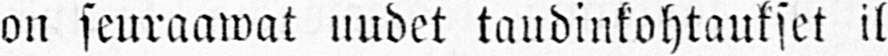on seuraawat uudet taudinkohtaukset il-
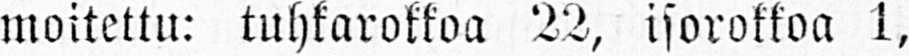moitettu: tuhkarokkoa 22, isorokkoa 1,
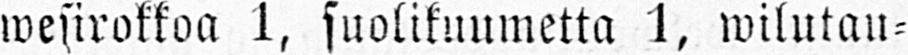wesirokkoa 1, suolikuumetta 1, wilutau-
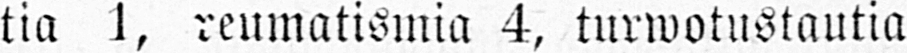tia 1, reumatismia 4, turwotustautia
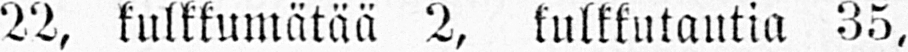22, kulkkumätää 2, kulkkutautia 35,
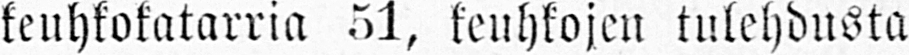keuhkokatarria 51, keuhkojen tulehdusta
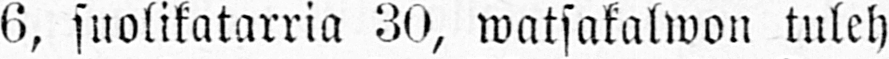6, suolikatarria 30, watsakalwon tuleh-
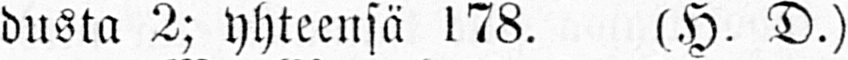dusta 2; yhteensä 178. (H. D.)
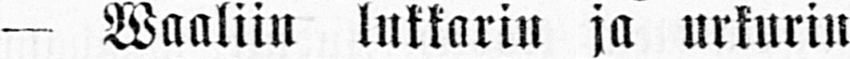— Waaliin lukkarin ja urkurin
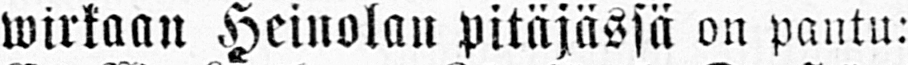wirkaan Heinolan pitäjässä on pantu:
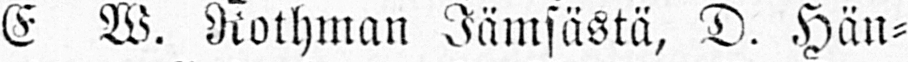E W. Rothman Jämsästä, D. Hän-
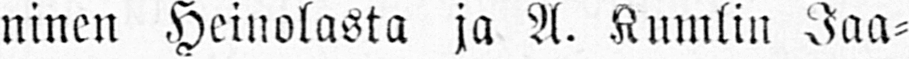ninen Heinolasta ja A. Kumlin Jaa-
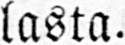lasta.
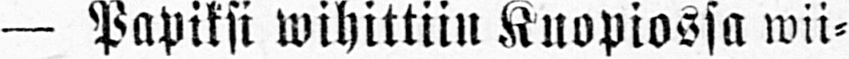— Papiksi wihittiin Kuopiossa wii-
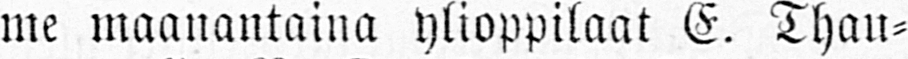me maanantaina ylioppilaat E. Thau-
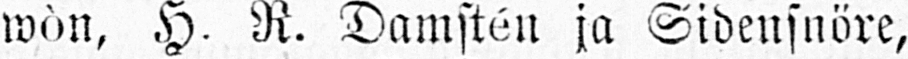wòn, H. R. Damstén ja Sidensnöre,
